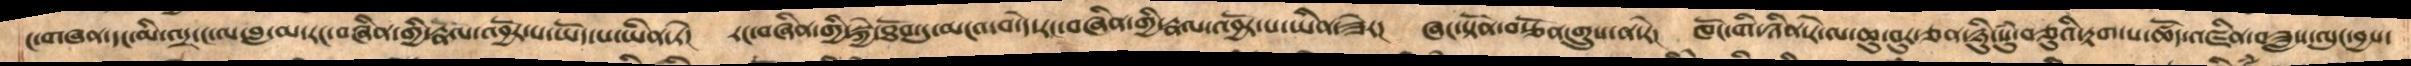ང་གཞན་དང་མི་འདྲ་ང་ལ་བླ་མ་རང་བཞིན་གྱི་རྣལ་འབྱོར་པ་ཡོད་པ་ཡིན་ཏེ།   རང་བཞིན་གྱི་སྐྱེ་ཐོབ་དུ་མངའ་བ་དེ་རང་བཞིན་གྱི་རྣལ་འབྱོར་པ་ཡིན་ཟེར།   ཞང་སྟོན་བརྩོན་གྲུས་ན་རེ།   ཁོང་གི་ཉིན་རེ་ལ་ཆུ་བུར་ཅན་ཉིུ་སུཾ་བཅུའི་རྟག་པ་ཚོད་འཛིན་བཟླས་ལུང་བྱས་
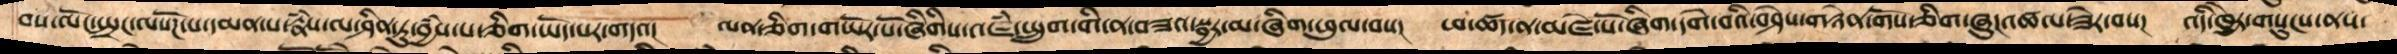བས་ལོང་སྤྲང་ལསོཌ་པ་དམན་པ་རྣཾས་ལ་ཤིན་ཏུ་བྱཾས་པ་ཅིག་ཡོད་པར་གདའ།   ལན་ཅིག་གཡོར་པོ་ཞིགིས་འཇཾ་ཕྲུག་གི་ན་བཟའ་སྦྱར་མ་ཞིག་ཕུལ་བས།   ཕ་ཚད་ན་མཛེ་པོ་ཞིག་དགེ་བའི་བཤེས་གཉེན་གོས་ཅིག་ཞུཌ་འཚལ་ཟེར་བས།  འདི་ཁྱེར་གསུངས་ནས་
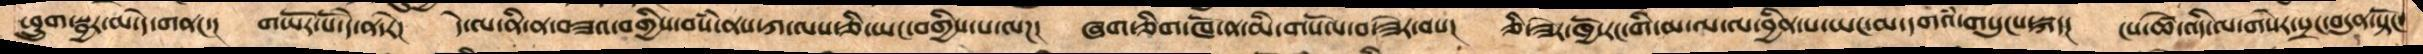ཕྲུག་སྦྱར་མ་དེ་གནང་།  གཡོར་པོ་དེ་ན་རེ།  དེ་ལ་ནི་ན་བཟའ་བགྱིས་བསཾ་ནས་ཀ་ལས་ཅི་ཡང་བགྱིས་པ་ལཌ།  ཞག་ཅིག་ཁོ་ན་མི་གསོལ་བ་ཟེར་བས།  ཅི་ཟེར་ཁྱོ་རང་གི་མ་ལ་ལ་བྱིན་པ་ཡང་མ་དགའི་གསུངས་སྐད།  ངས་ཚེ་འདི་ལ་གསེར་སྲང་བདུན་སྟོང་
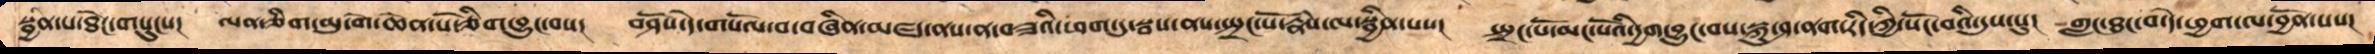སྦྱིན་པ་ཐོང་གསུངས།   ལན་ཅིག་མུ་གེ་ཆེན་པོ་ཅིག་བྱུང་བས།   བཤོས་དེ་གསོལ་བ་བཞིན་མཛད་ནས་ན་བཟའི་ཕག་དུ་སྦས་ནས་སྤྲང་པོ་རྣཾས་ལ་སྦྱིན་པས།   སྤྲང་པོ་མང་པོའི་དྱག་བྱུང་བས་སྐུ་ཤ་ནག་རིད་ཀྱི་སོང་བའི་དུས་སུ།   གླང་ཐང་བ་དེ་ཕྱག་ལ་བྱོན་པས།
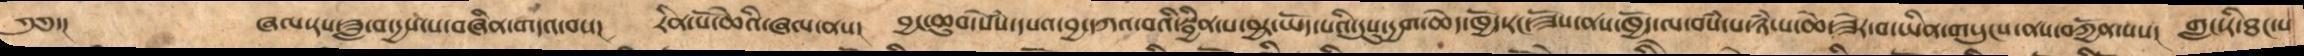༄༅་།      ཞལ་རས་ཟླ་བ་དྱས་པ་བཞིན་གདའ་བས།   རིན་པོ་ཆེའི་ཞལ་ནས།   བྱང་ཆུབ་སེཾས་དཔའ་བྱ་དཀའ་བའི་སྦྱིན་པ་བྱར་ཡོད་པའི་དུསུ་དྱག་ཆེད་ཁྱོད་རང་ཟོས་ནས་ཁྱོད་ལ་བསཾ་པ་ཉཾ་པ་ཆེ་ཟེར་བ་ཡིན་གསུངས་ནས་བཀྱོན་པས།   གླང་རི་ཐང་པ
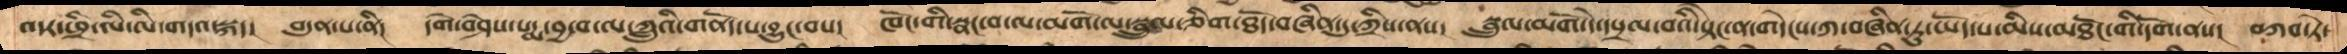འདར་ཕྲི་ལི་ལི་གདའ་སྐད།   བདུན་པ་ནི།  དགེ་བཤེས་པདྨ་བྱ་བ་ལ་ཀླུའི་གནོད་པ་བྱུང་བས།   ཁོང་གི་སྣང་བ་ལ་མགོ་ལ་སྦྲུལ་ཅིག་ཐོད་བཞིན་དུ་ཀྲིས་ནས།   སྦྲུལ་མགོ་དེ་དཔྲལ་བའི་སྟེང་ན་གདེངས་ཀ་བཞིན་ཏུ་ཡོད་པ་མིས་མཐོང་གི་དོག་ནས།   བཀབ་ཏེ་
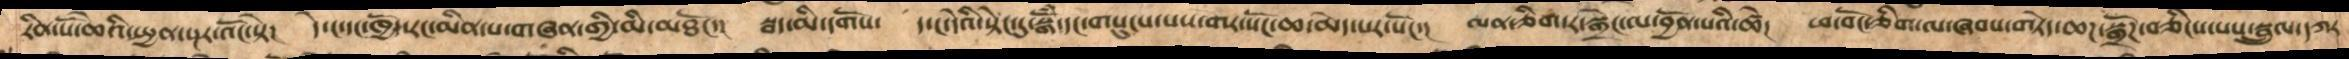རིན་པོ་ཆེའི་སྤྱན་སྔར་འོང་སྟེ།  དེ་ང་དང་ཁྱོད་རང་མིན་པ་གཞན་གྱིས་མི་མཐོང་།   སྦད་མི་དགོས།   ད་ང་དེའི་སྟེང་དུ་སྒོཾ་དང་གསུང་པས་གར་སོང་ཆ་མེད་པར་སོང་།   ལན་ཅིག་ར་སྒྲེང་ལ་བྱོན་པའི་ཚེ།   ཕ་བོང་ཅིག་ལ་ཞབས་གཏདེ་ཆཌ་སྒྲོཌ་བཅིངས་པས་སྦྲུལ་དཀར་
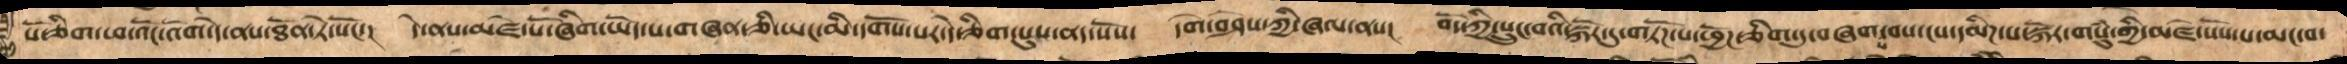པོ་གཅིག་ཕ་འོང་འོག་དེ་ནས་ཐོན་ཏེ་སོང། དེ་ནས་མཛེ་པོ་ཅིག་ཡོད་པ་གཞན་ཅི་ཡང་མི་དགོས་པར་དེ་ཅིག་པུས་ནད་སོས། དགེ་བཤེས་ཀྱི་ཞལ་ནས། བོད་ཀྱི་སྲུང་བའི་སྐོར་དུ་གཏོཌ་པ་ཕྱོཌ་ཅིག་དུ་བཞག་པ་བས་ངས་དམིཌ་པ་སྐོར་གསུཾ་གྱི་མཛེ་པོས་པ་མང་བ་
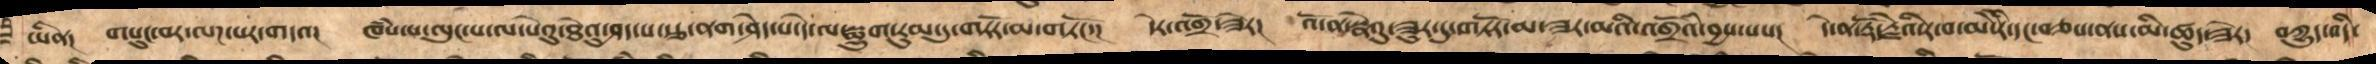ཡིན། གསུང་བར་ལཌ་པར་གདའ། ཁཾས་པ་ལུང་པ་ལ་པེའུ་ཐེའུ་བཤད་ས་རྩ་ནག་ཤེད་པ་དེ་ལ་སྨྱུག་རུམ་དུ་གཏོར་མ་གཏོང་། དེར་འགྲོ་ཟེར། འོ་ན་སྣེའུ་ཟུར་དུ་གཏོར་མ་ཟར་མའི་འགྲོའི་བྱས་པས། དེ་ན་རྡོ་རྗེའི་ར་བ་མེ་རི་དང་བཅས་ནས་མི་ཚུད་ཟེར། བཀྱུད་འདི་
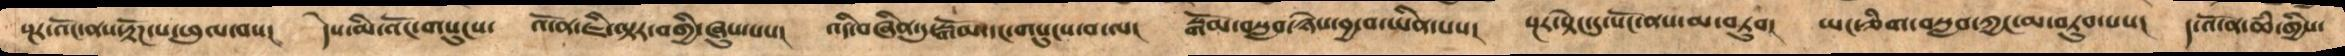སྔར་འོང་ནས་རྟོཌ་པ་ཕུལ་བས།   དེས་མི་འོང་གསུངས།   འོ་ན་ཇི་ལྟར་བགྱི་ཞུས་པས།   འདི་བཞིན་དུ་སྒོམ་དང་གསུངས་བ་ལ།   སྒོམ་བསླབ་ཉེས་བྱ་བ་ཡིན་པས།   སྔར་སྟེང་དུ་སོང་ནས་མ་བཏུབ།    ཡང་ཅིག་བསླབ་ཀྱང་མ་བཏུབ་པས།  ད་འོ་ན་ཆཾ་ཁྱིས་
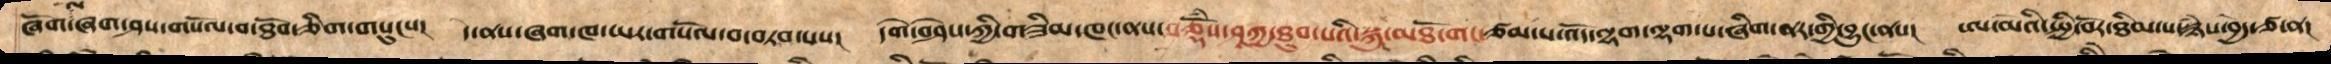ཞོག་ལ་ཞག་ཤས་གསོལ་བ་ཐོབ་ཅིག་གསུངས། དེ་ནས་ཞག་ཁ་ཡར་གསོལ་བ་བཏབ་པས། དགེ་བཤེས་ཀྱི་གཟིམས་ཁང་ནས་བཅྡོཾས་ཤཱཀྱ་ཐུབ་པའི་སྐུ་མཐོ་གང་ཙམ་པ་འོད་ལྷག་ལྷག་པ་ཞིག་ནར་གྱི་བྱུང་ནས། ཨ་མའི་སྤྱི་བོར་ཐིམ་པ་སྙཾས་བྱེད་ཙ་ན།
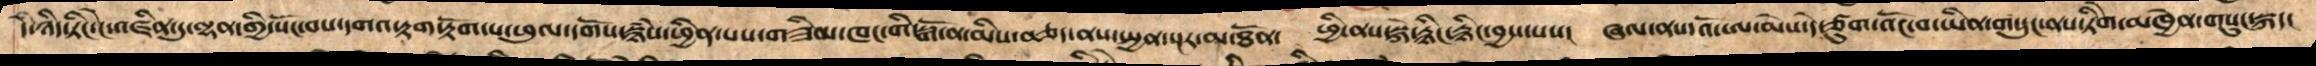དེ་ཉིད་ཏིང་ངེ་འཛིན་དུ་ལྷན་གྱི་སོང་བས་དགའ་རྟག་རྟོག་པ་ཕུལ་དགོས་སྙཾས་ཕྱིན་པས་གཟིམ་ཁང་གི་སྒོ་ན་མིས་བཅད་ནས་སྤྱན་སྔར་མ་ཐོན།  ཕྱི་ནས་སྐེ་རྙིང་རྙིང་བྱས་པས།   ཞལ་ནས་འོ་ཨ་མེས་དེ་ཙུག་འོང་བ་ཡིན་གསུང་ནས་ཏིགེ་མཁྱེན་གསུང་སྐད།
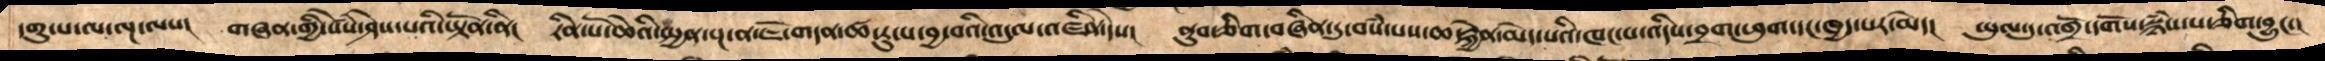དགུ་པ་ལ་ལྔ་ལས།  གཞན་གྱི་སེཾས་ཤེས་པའི་ཡྟོན་ནི།  རིན་པོ་ཆེའི་སྤྱན་སྔ་ན་ཇོ་གདན་ཚ་རུ་པ་བྱ་བའི་འདུལ་འཛིན་དེས།  ནུབ་ཅིག་བཞིན་དུ་བསཾ་པས་ཆ་རྐྱེན་མེད་པའི་ཁང་པ་འདིས་བྲག་ཕུག་དང་ཁྱད་པར་མེད།  ཡུལ་དུ་འགྲོ་དགོས་སྙཾས་པ་ཅིག་བྱུང་།།
